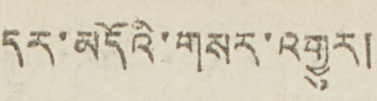དར་མདོའི་གསར་འགྱུར།
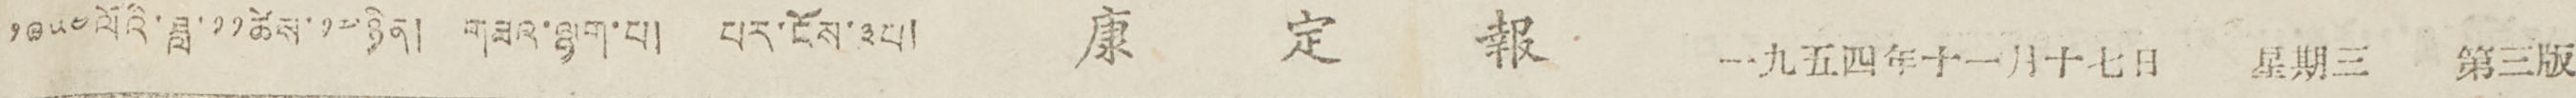༡༩༥༤ ལོའི་ཟླ་ ༡༡ ཚེས་ ༡༧ ཉིན། གཟའ་ལྷག་པ། པར་ངོས་༣པ། 康 定 報 一九五四年十一月十七日 星期三 第三版
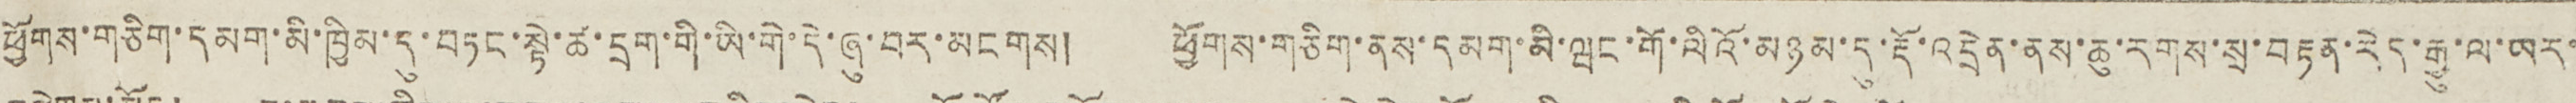ཕྱོགས་གཅིག་དམག་མི་ཁྱིམ་དུ་བཏང་སྟེ་ཚ་དྲག་གི་ཡི་གེ་དེ་ཞུ་བར་མངགས། ཕྱོགས་གཅིག་ནས་དམག་མི་ཝང་གོ་ལིའོ་མཉམ་དུ་རྡོ་འདྲེན་ནས་ཆུ་རགས་སྲ་བརྟན་རེད་རྒྱུ་ལ་ཡར་
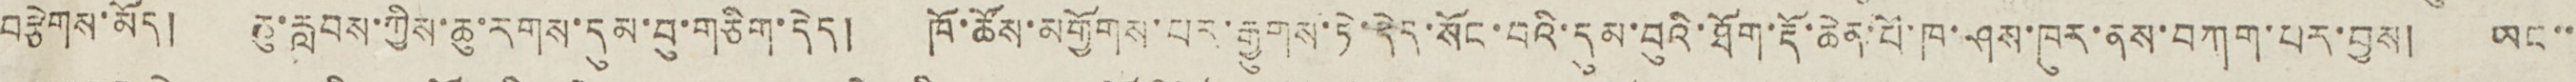བརྩེགས་མོད། ཆུ་རླབས་ཀྱིས་ཆུ་རགས་དུམ་བུ་གཅིག་དེད། ཁོ་ཚོས་མགྱོགས་པར་རྒྱུགས་ཏེ་དེད་སོང་བའི་དུམ་བུའི་ཐོག་རྡོ་ཆེན་པོ་ཁ་ཤས་ཁུར་ནས་བཀག་པར་བྱས། ཡང་་
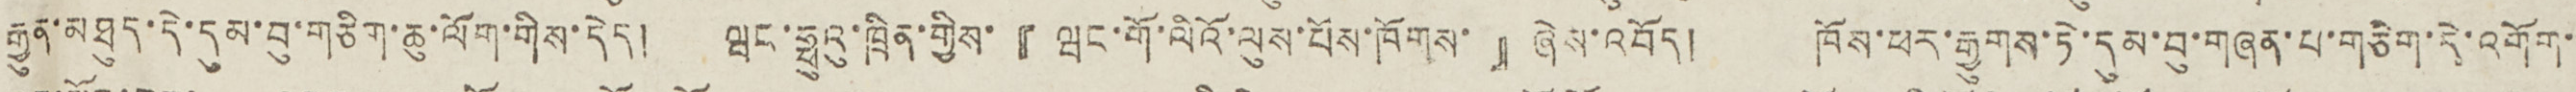རྒྱུན་མཐུད་དེ་དུམ་བུ་གཅིག་ཆུ་ལོག་གིས་དེད། ཝང་ཧྥུའུ་ཁྲིན་གྱིས་『 ཝང་གོ་ལིའོ་ལུས་པོས་ཁོགས་ 』ཞེས་འབོད། ཁོས་ཕར་རྒྱུགས་ཏེ་དུམ་བུ་གཞན་པ་གཅིག་དེ་འགོག་
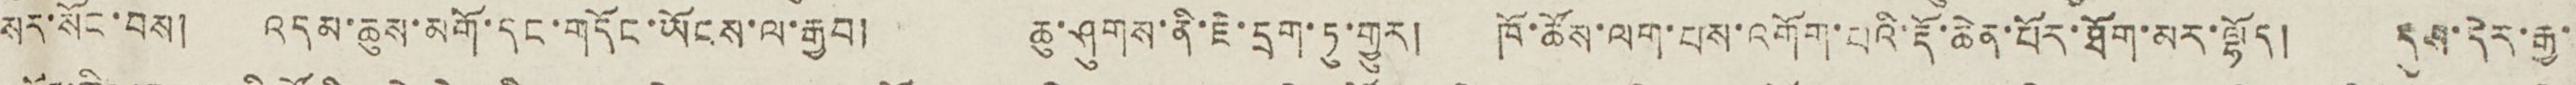སར་སོང་བས། འདམ་ཆུས་མགོ་དང་གདོང་ཡོངས་ལ་རྒྱབ། ཆུ་ཤུགས་ནི་ཇེ་དྲག་ཏུ་གྱུར། ཁོ་ཚོས་ལག་པས་འགོག་པའི་རྡོ་ཆེན་པོར་ཐོག་མར་ལྷོད། དུས་དེར་རྒྱ་
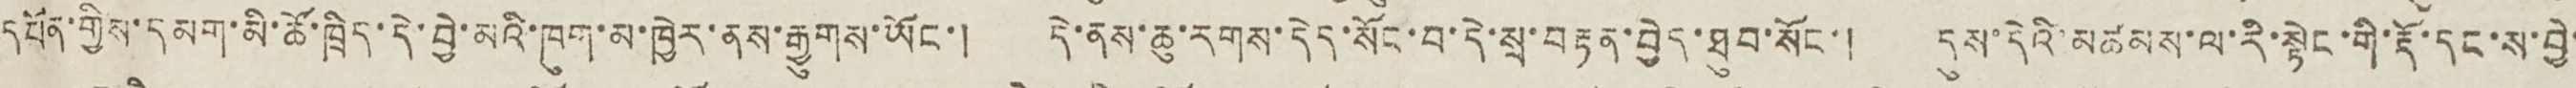དཔོན་གྱིས་དམག་མི་ཚོ་ཁྲིད་དེ་བྱེ་མའི་ཁུག་མ་ཁྱེར་ནས་རྒྱུགས་ཡོང་། དེ་ནས་ཆུ་རགས་དེད་སོང་བ་དེ་སྲ་བརྟན་བྱེད་ཐུབ་སོང་། དུས་དེའི་མཚམས་ལ་རི་སྟེང་གི་རྡོ་དང་ས་བྱེ་
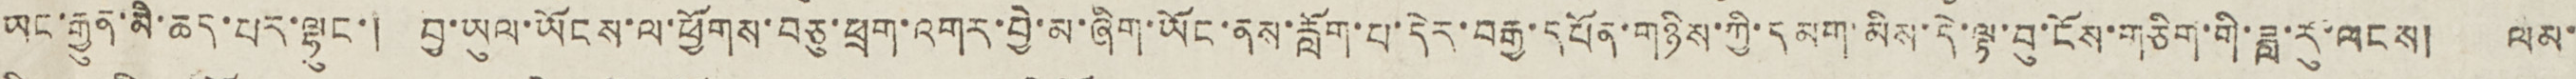ཡང་རྒྱུན་མི་ཆད་པར་ལྷུང་། བྱ་ཡུལ་ཡོངས་ལ་ཕྱོགས་བཅུ་ཕྲག་འགར་བྱེ་མ་ཞིག་ཡོང་ནས་རློག་པ་དེར་བརྒྱ་དཔོན་གཉིས་ཀྱི་དམག་མིས་དེ་ལྟ་བུ་ངོས་གཅིག་གི་ཟླ་རུ་ལངས། ལམ་
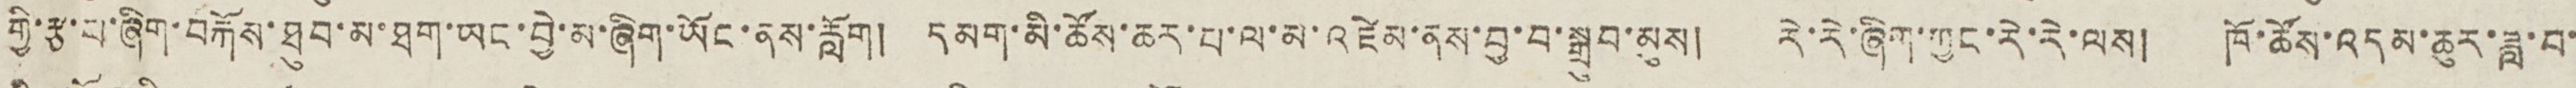གྱི་རྩ་པ་ཞིག་བརྐོས་ཐུབ་མ་ཐག་ཡང་བྱེ་མ་ཞིག་ཡོང་ནས་རློག། དམག་མི་ཚོས་ཆར་པ་ལ་མ་འཛེམ་ནས་བྱ་བ་སྒྲུབ་མུས། རེ་རེ་ཞིག་ཀྱང་རེ་རེ་ལས། ཁོ་ཚོས་འདམ་ཆུར་ཟླ་བ་
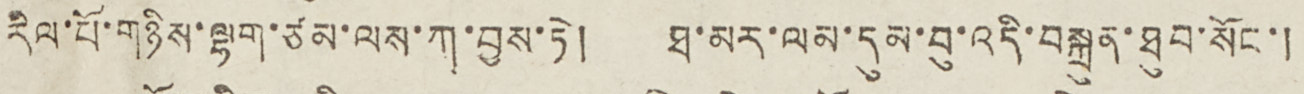རིལ་པོ་གཉིས་ལྷག་ཙམ་ལས་ཀ་བྱས་ཏེ། ཐ་མར་ལམ་དུམ་བུ་འདི་བསྐྲུན་ཐུབ་སོང་།
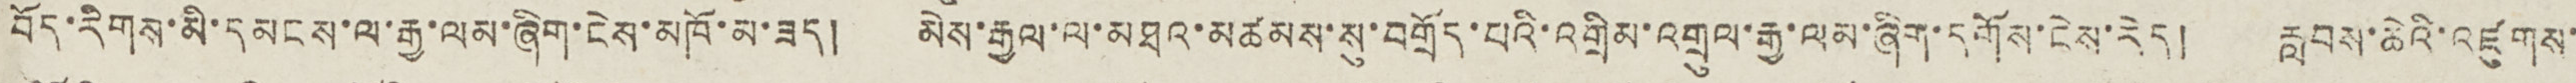བོད་རིགས་མི་དམངས་ལ་རྒྱ་ལམ་ཞིག་ངེས་མཁོ་མ་ཟད། མེས་རྒྱལ་ལ་མཐའ་མཚམས་སུ་བགྲོད་པའི་འགྲིམ་འགྲུལ་རྒྱ་ལམ་ཞིག་དགོས་ངེས་རེད། རླབས་ཆེའི་འཛུགས་
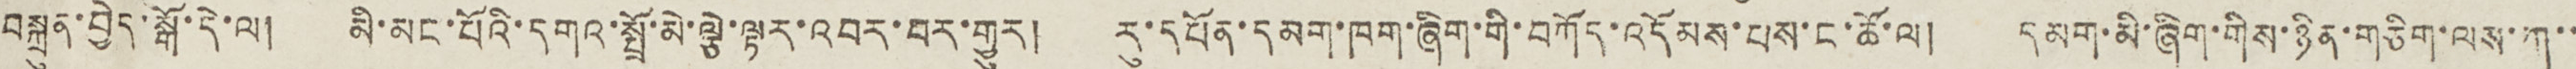བསྐྲུན་བྱེད་སྒོ་དེ་ལ། མི་མང་པོའི་དགའ་སྤྲོ་མེ་ལྕེ་ལྟར་འབར་བར་གྱུར། རུ་དཔོན་དམག་ཁག་ཞིག་གི་བཀོད་འདོམས་པས་ང་ཚོ་ལ། དམག་མི་ཞིག་གིས་ཉིན་གཅིག་ལས་ཀ་་
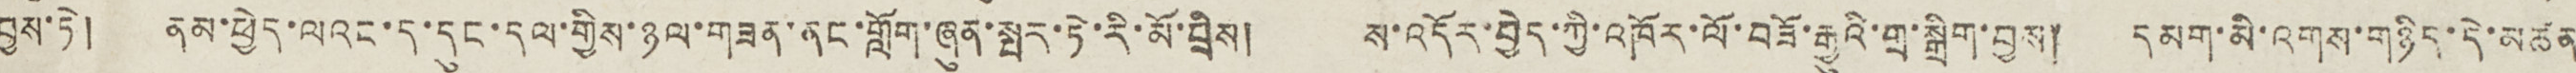བྱས་ཏེ། ནམ་ཕྱེད་ལའང་ད་དུང་དལ་གྱིས་ཉལ་གཟན་ནང་གློག་ཞུན་སྤར་ཏེ་རི་མོ་བྲིས། ས་འདོར་བྱེད་ཀྱི་འཁོར་ལོ་བཟོ་རྒྱུའི་གྲ་སྒྲིག་བྱས། དམག་མི་འགས་གཉིད་དེ་མཚན
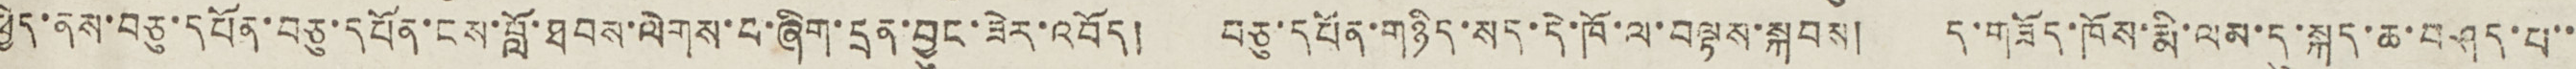ཕྱེད་ནས་བཅུ་དཔོན་བཅུ་དཔོན་ངས་བློ་ཐབས་ལེགས་པ་ཞིག་དྲན་བྱུང་ཟེར་འབོད། བཅུ་དཔོན་གཉིད་སད་དེ་ཁོ་ལ་བལྟས་སྐབས། ད་གཟོད་ཁོས་རྨི་ལམ་དུ་སྐད་ཆ་བཤད་པ་་
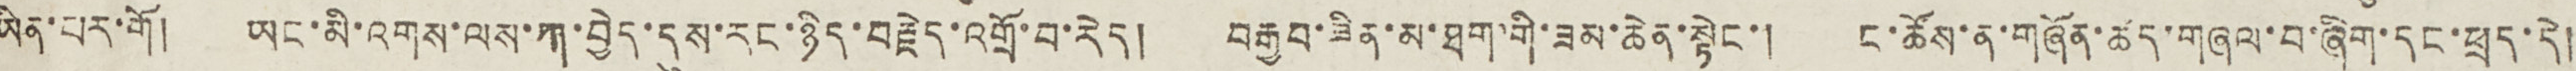ཡིན་པར་གོ། ཡང་མི་འགས་ལས་ཀ་བྱེད་དུས་རང་ཉིད་བརྗེད་འགྲོ་བ་རེད། བརྒྱབ་ཟིན་མ་ཐག་གི་ཟམ་ཆེན་སྟེང་། ང་ཚོས་ན་གཞོན་ཚད་གཞལ་བ་ཞིག་དང་ཕྲད་དེ།
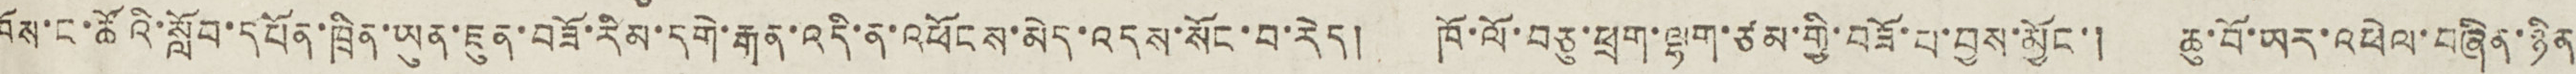ཁོས་ང་ཚོའི་སློབ་དཔོན་ཁྲིན་ཡུན་ཇུན་བཟོ་རིམ་དགེ་རྒན་འདི་ན་འཕོངས་མེད་འདས་སོང་བ་རེད། ཁོ་ལོ་བཅུ་ཕྲག་ལྷག་ཙམ་གྱི་བཟོ་པ་བྱས་མྱོང་། ཆུ་བོ་ཡར་འཕེལ་བཞིན་ཉིན
